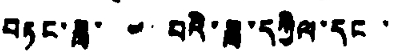བཏང་ཟླ་ ༤ པའི་ཟླ་དཀྱིལ་དང་
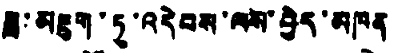ཟླ་མཇུག་ཏུ་འདེབས་ལས་བྱེར་མཁན
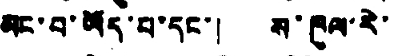མང་བ་ཡོད་པ་དང་། ས་ཁུལ་རེ་
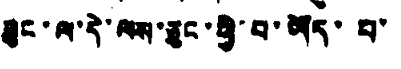ཟུང་ལ་དེ་ལས་ཅུང་ཕྱི་བ་ཡོད་པ་
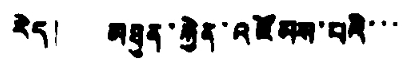རེད། མཐུན་རྐྱེན་འཛོམས་པའི་་་་
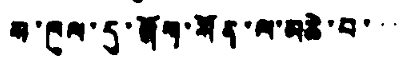ས་ཁུལ་དུ་ཞོག་སོན་ལ་མཆེ་བ་་་
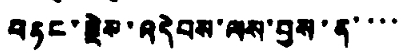བཏང་རྗེས་འདེབས་ལས་བྱས་ན་་་་
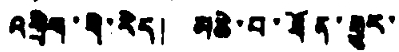འགྲིག་གི་རེད། མཆེ་བ་ཐོན་རྒྱུར་
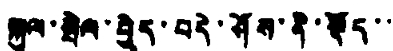སྐྱལ་སྤེལ་བྱེད་བདེ་ཤོས་ནི་སྡོད་་
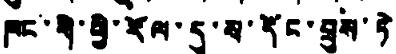ཁང་གི་ཕྱི་རོལ་དུ་ས་དོང་བྲུས་ཏེ
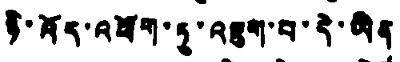ཉི་འོད་འཕོག་ཏུ་འཇུག་བ་དེ་ཡིན
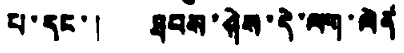པ་དང་། ཐབས་ཤེས་དེ་ལག་ལེན
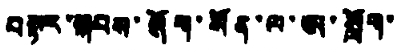བསྟར་སྐབས་ཞོག་སོན་ལ་ཨ་སློག་
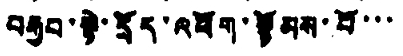བརྒྱབ་སྟེ་དྲོད་འཕོག་སྙོམས་པོ་་་
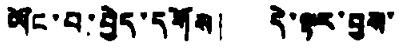ཡོང་བ་བྱེད་དགོས། དེ་ལྟར་བྱས་
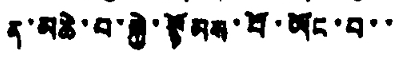ན་མཆེ་བ་སྐྱེ་སྙོམས་པོ་ཡོང་བ་་
